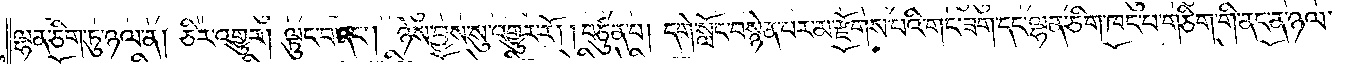ལྷན་ཅིག་ཏུ་ཉལ་ན། ཅིར་འགྱུར། ལྟུང་བ་དང༌། ཉེས་བྱས་སུ་འགྱུར་རོ། །བཙུན་པ། དགེ་སློང་བསྙེན་པར་མ་རྫོགས་པའི་གང་ཟག་དང་ལྷན་ཅིག་ཁང་པ་གཅིག་གི་ནང་ན་ཉལ་
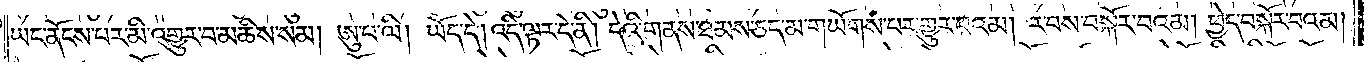ཡང་ནོངས་པར་མི་འགྱུར་བ་མཆིས་སམ། ཨུ་པ་ལི། ཡོད་དེ། འདི་ལྟར་དེ་ནི། དེའི་གནས་ཐམས་ཅད་མ་གཡོགས་པར་གྱུར་པའམ། ར་བས་བསྐོར་བའམ། ཕྱེད་བསྐོར་བའམ།
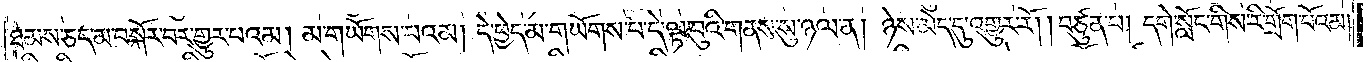ཐམས་ཅད་མ་བསྐོར་བར་གྱུར་པའམ། མ་གཡོགས་པའམ། དེ་ཕྱེད་མ་གཡོགས་པ་དེ་ལྟ་བུའི་གནས་སུ་ཉལ་ན། ཉེས་མེད་དུ་འགྱུར་རོ། །བཙུན་པ། དགེ་སློང་གིས་རི་གྲོག་པོའམ།
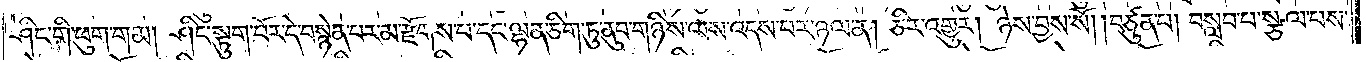ཤིང་གི་ཕུག་གམ། ཤིང་སྟུག་པོར་དེ་བསྙེན་པར་མ་རྫོགས་པ་དང་ལྷན་ཅིག་ཏུ་ནུབ་གཉིས་ལས་འདས་པར་ཉལ་ན། ཅིར་འགྱུར། ཉེས་བྱས་སོ། །བཙུན་པ། བསླབ་པ་སྩལ་པས་
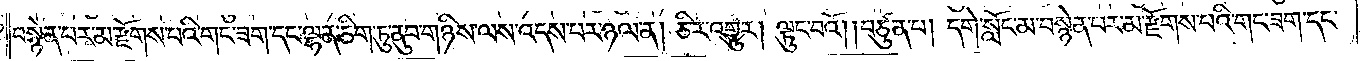བསྙེན་པར་མ་རྫོགས་པའི་གང་ཟག་དང་ལྷན་ཅིག་ཏུ་ནུབ་གཉིས་ལས་འདས་པར་ཉལ་ན། ཅིར་འགྱུར། ལྟུང་བའོ། །བཙུན་པ། དགེ་སློང་མ་བསྙེན་པར་མ་རྫོགས་པའི་གང་ཟག་དང་
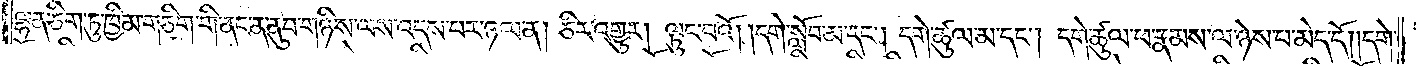ལྷན་ཅིག་ཏུ་ཁྱིམ་གཅིག་གི་ནང་ན་ནུབ་གཉིས་ལས་འདས་པར་ཉལ་ན། ཅིར་འགྱུར། ལྟུང་བའོ། །དགེ་སློབ་མ་དང༌། དགེ་ཚུལ་མ་དང༌། དགེ་ཚུལ་ཕ་རྣམས་ལ་ཉེས་པ་མེད་དོ། །དགེ་
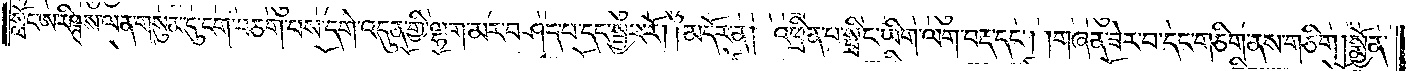སློང་ཨ་རིཥྚས་ལན་གསུམ་དུ་ངག་བཅག་པས་དགེ་འདུན་གྱི་ལྷག་མར་བཤད་པ་དང་སྦྱར་རོ།    །མདོར་ན། འཕྲིན་པ་སྤྲིང་ཡིག་ལག་བརྡ་དང༌། །གཞན་ཟེར་བ་དང་གཅིག་ནས་གཅིག །སྨྱོན་
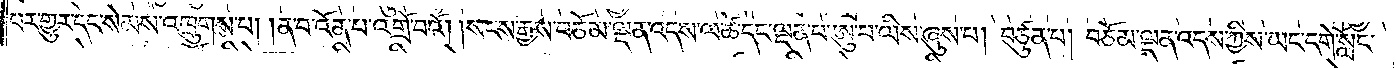པར་གྱུར་དང་སེམས་འཁྲུགས་པ། །ན་བ་འོན་པ་འགྲོ་བའོ། །སངས་རྒྱས་བཅོམ་ལྡན་འདས་ལ་ཚེ་དང་ལྡན་པ་ཨུ་པ་ལིས་ཞུས་པ། བཙུན་པ། བཅོམ་ལྡན་འདས་ཀྱིས་ཡང་དགེ་སློང་
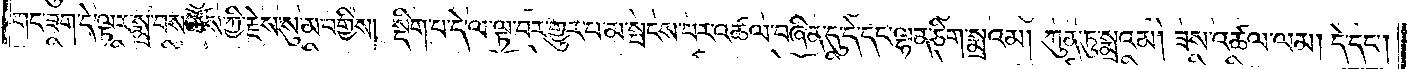གང་ཟག་དེ་ལྟར་སྨྲ་བས་ཆོས་ཀྱི་རྗེས་སུ་མ་བགྱིས། སྡིག་པ་དེ་ལ་ལྟ་བར་གྱུར་པ་མ་སྤངས་པར་འཚལ་བཞིན་དུ་དེ་དང་ལྷན་ཅིག་ཏུ་སྨྲའམ། ཀུན་ཏུ་སྨྲའམ། ཟས་འཚལ་ལམ། དེ་དང༌།
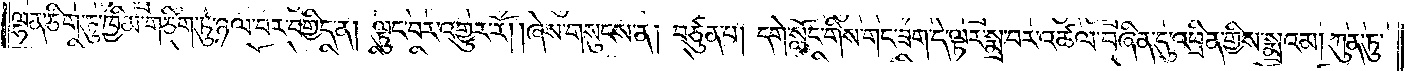ལྷན་ཅིག་ཏུ་ཁྱིམ་གཅིག་ཏུ་ཉལ་བར་བགྱིད་ན། ལྟུང་བར་འགྱུར་རོ། །ཞེས་གསུངས་ན། བཙུན་པ། དགེ་སློང་གིས་གང་ཟག་དེ་ལྟར་སྨྲ་བར་འཚལ་བཞིན་དུ་འཕྲིན་གྱིས་སྨྲའམ། ཀུན་ཏུ་
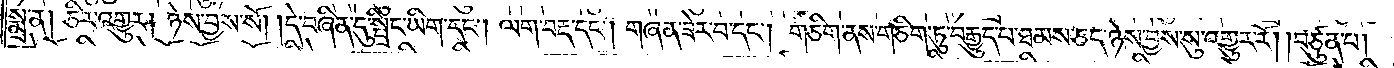སྨྲ་ན། ཅིར་འགྱུར། ཉེས་བྱས་སོ། །དེ་བཞིན་དུ་སྤྲིང་ཡིག་དང༌། ལག་བརྡ་དང༌། གཞན་ཟེར་བ་དང༌། གཅིག་ནས་གཅིག་ཏུ་བརྒྱུད་པ་ཐམས་ཅད་ཉེས་བྱས་སུ་འགྱུར་རོ། །བཙུན་པ།
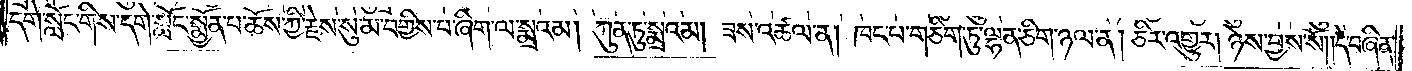དགེ་སློང་གིས་དགེ་སློང་སྨྱོན་པ་ཆོས་ཀྱི་རྗེས་སུ་མ་བགྱིས་པ་ཞིག་ལ་སྨྲའམ། ཀུན་ཏུ་སྨྲའམ། ཟས་འཚལ་ན། ཁང་པ་གཅིག་ཏུ་ལྷན་ཅིག་ཉལ་ན། ཅིར་འགྱུར། ཉེས་བྱས་སོ། །དེ་བཞིན་
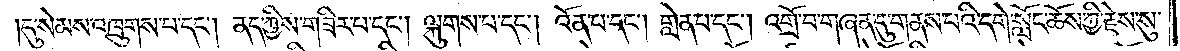།དུ་སེམས་འཁྲུགས་པ་དང༌། ནད་ཀྱིས་གཟིར་པ་དང༌། ལྐུགས་པ་དང༌། འོན་པ་དང༌། གླེན་པ་དང༌། འགྲོ་བ་གཞན་དུ་གནས་པའི་དགེ་སློང་ཆོས་ཀྱི་རྗེས་སུ་
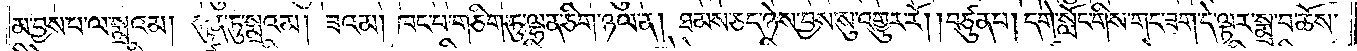མ་བྱས་པ་ལ་སྨྲའམ། ཀུན་ཏུ་སྨྲའམ། ཟའམ། ཁང་པ་གཅིག་ཏུ་ལྷན་ཅིག་ཉལ་ན། ཐམས་ཅད་ཉེས་བྱས་སུ་འགྱུར་རོ། །བཙུན་པ། དགེ་སློང་གིས་གང་ཟག་དེ་ལྟར་སྨྲ་བ་ཆོས་
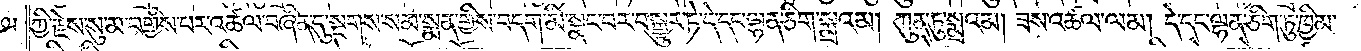ཀྱི་རྗེས་སུ་མ་བགྱིས་པར་འཚལ་བཞིན་དུ་སྔགས་སམ་སྨན་གྱིས་བདག་མི་སྣང་བར་བསྒྱུར་ཏེ་དེ་དང་ལྷན་ཅིག་སྨྲའམ། ཀུན་ཏུ་སྨྲའམ། ཟས་འཚལ་ལམ། དེ་དང་ལྷན་ཅིག་ཏུ་ཁྱིམ་
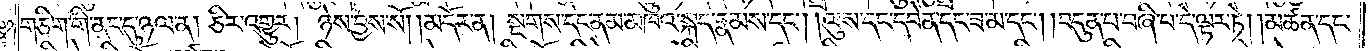གཅིག་གི་ནང་དུ་ཉལ་ན། ཅིར་འགྱུར། ཉེས་བྱས་སོ།    །མདོར་ན། སྔགས་དང་ནམ་མཁའ་སྐད་རྣམས་དང༌། །ལུས་དང་དབེན་དང་ཟ་མ་དང༌། །བདུན་པ་བཞི་པ་དེ་ལྟར་ཏེ། །མཚན་དང་
